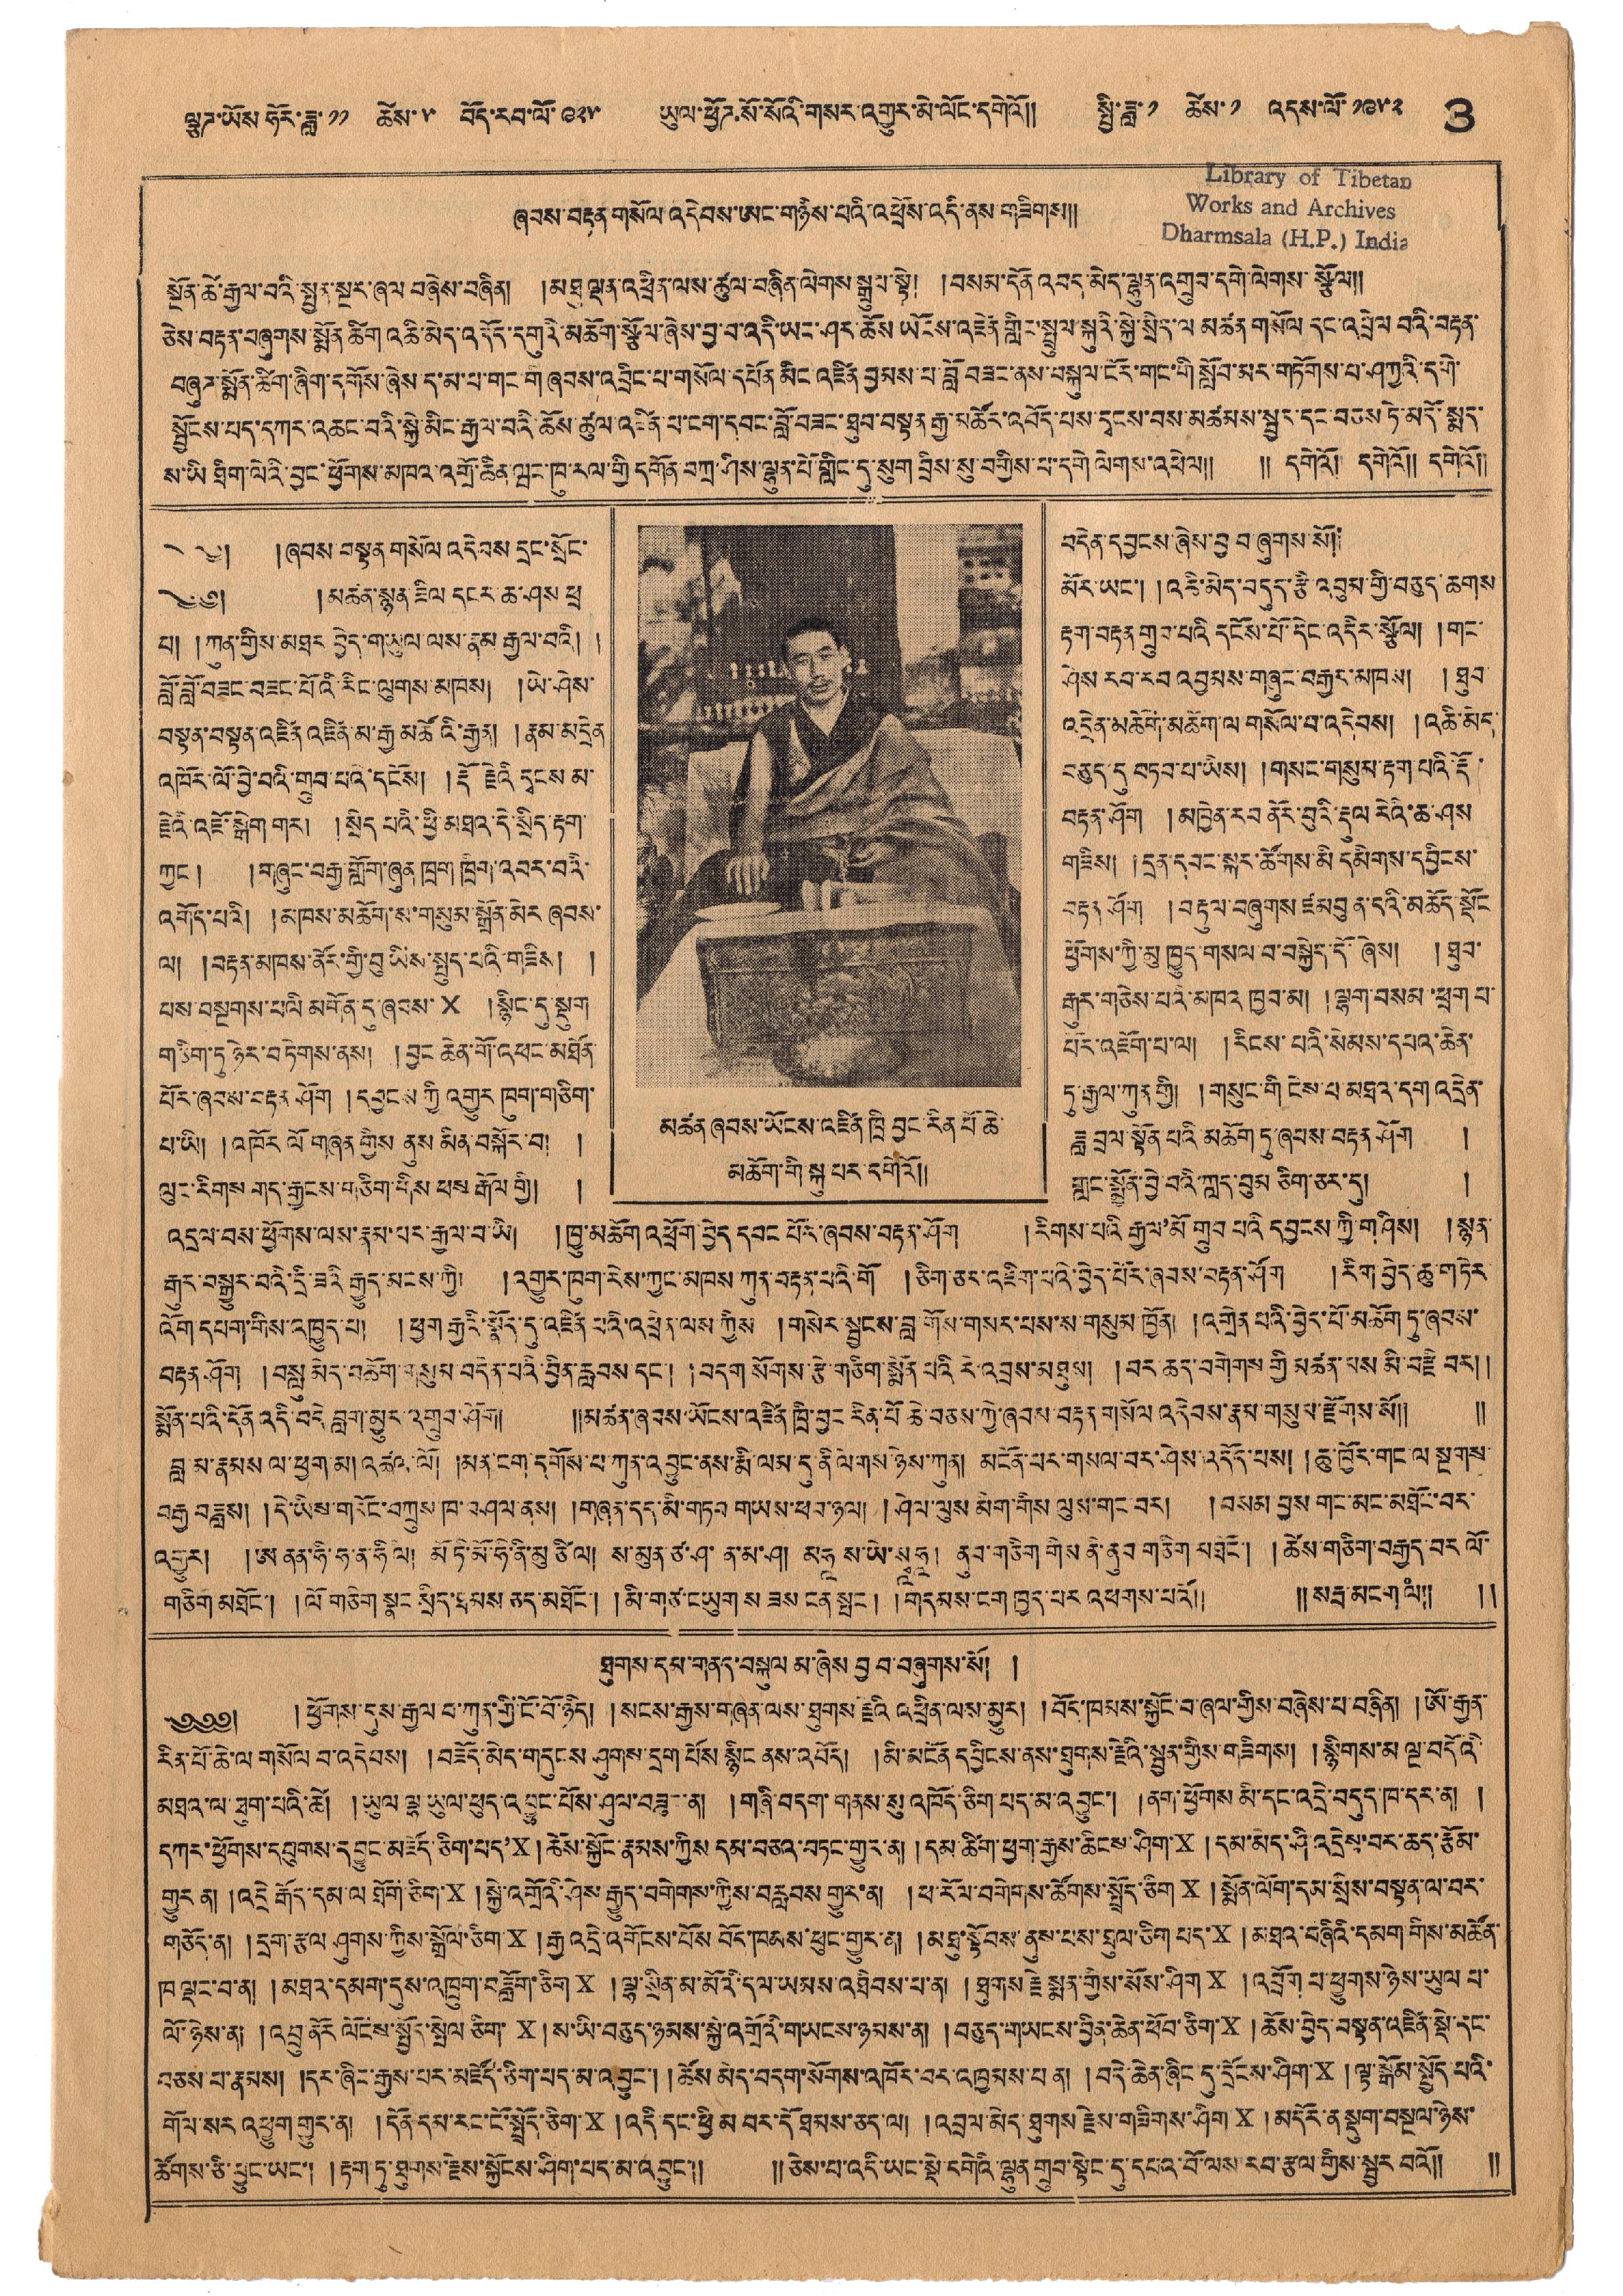ལྕཊ་ཡོས ཧོར་ཟླ་ ༡༡ ཚེས་ ༥ བོད་རབ་པོ་༩༢༥ ཡུལ་ཕྱོཊ་སོ་སོའི་གསར་འགྱུར་མེ་ལོང་དགེའོ།། སྤྱི་ཟླ་ ༡ ཚེས་ ༡ འདས་ལོ་ ༡༩༥༢ 3
ཞབས་བརྟན་གསོལ་འདེབས་ཨང་གཉིས་པའི་འཕྲོས་འདི་ནས་གཟིགས།།
སྔོན་ཚེ་རྒྱལ་བའི་སྤྱན་སྔར་ཞལ་བཞེས་བཞིན། །མཐུ་ལྡན་འཕྲིན་ལས་ཚུལ་བཞིན་ལེགས་སྒྲུབ་སྟེ། །བསམ་དོན་འབད་མེད་ལྷུན་འགྲུབ་དགེ་ལེགས་སྩོལ།།
ཅེས་བརྟན་བཞུགས་སྨོན་ཚིག་འཆི་མེད་འདོད་དགུའི་མཆོག་སྩོལ་ཞེས་བྱ་བ་འདི་ཡང་ཤར་ཆོས་ཡོངས་འཛིན་གླིང་སྤྲུལ་སྐུའི་སྐྱེ་སྲིད་ལ མཚན་གསོལ དང་འབྲེལ བའི་བརྟན་
བཞུཊ་སྨོན་ཚིག་ཞིག་དགོས་ཞེས ད་མ་པ་གང་གི་ཞབས་འབྲིང་པ་གསོལ་དཔོན་མིང་འཛིན་བྱམས་པ་བློ་བཟང་ནས་བསྐུལ་ངོར་གང་གི་སློབ་མར་གཏོགས་པ་ཤཀྱའི་དགེ་
སྦྱོངས་པད་དཀར་འཆང་བའི་སྐྱེ་མིང་རྒྱལ་བའི་ཆོས་ཚུལ་འཛིན་པ་ངག་དབང་བློ་བཟང་ཐུབ་བསྟན་རྒྱ་མཚོར་འབོད་པས་དྭངས་བས་མཚམས་སྦྱར་དང་བཅས་ཏེ་མདོ་སྨད་
ས་ཡི་ཐིག་ལེའི་བྱང་ཕྱོགས་མཁའ་འགྲོ་ཆེན་ཝང་ཁུ་རལ་གྱི་དགོན་བཀྲ་ཤིས་ལྷུན་པོ་གླིང་དུ་སུག བྲིས་སུ་བགྱིས་པ་དགེ་ལེགས་འཕེལ།། །།དགེའོ། དགེའོ།། དགེའོ།།
མཚན ཞབས་ཡོངས་འཛིན་ཁྲི བྱང་རིན་པོ ཆེ་
མཆོག་གི་སྐུ་པར་དགེའོ།།
༄༅། །ཞབས་བསྟན་གསོལ་འདེབས་དྲང་སྲོང་ བདེན་དབྱངས་ཞེས་བྱ བ་ཞུགས་སོ།།
༄༅། །མཚན་སྙན་ཟིལ་དངར་ཆ་ཤས་ཕྲ མོར་ཡང་། །འཆི་མེད་བདུད་རྩི་འབུམ་གྱི་བཅུད་ཆགས་
པ། །ཀུན་གྱིས་མཐར བྱེད་གཡུལ་ལས་རྣམ་རྒྱལ་བའི། ། རྟག་བརྟན་གྲུབ་པའི་དངོས་པོ་དེང་འདིར་སྩོལ། །གང་
བློ་བློ་བཟང་བཟང་པོའི་རིང་ལུགས་མཁས། །ཡེ་ཤེས་ ཤེས་རབ་རབ་འབྱམས་གཞུང་བརྒྱར་མཁས། །ཐུབ་
བསྟན་བསྟན་འཛིན་འཛིན་མ་རྒྱ་མཚོའི་རྒྱན། །རྣམ་མདྲེན འདྲེན་མཆོག་མཆོག་ལ་གསོལ་བ་འདེབས། །འཆི་མེད་
འཁོར་ལོ་བྱེ་བའི་གྲུབ་པའི་དངོས། །རྡོ རྗེའི་དྭངས་མ་ བཅུད་དུ་བཏབ་པ་ཡིས། །གསང་གསུམ་རྟག་པའི་རྡོ་
རྗེའི་འཇོ་སྒེག་གར། །སྲིད་པའི་ཕྱི་མཐར་དེ་སྲིད་རྟག་ བརྟག་ཤོག །མཁྱེན་རབ་ནོར་བུའི་རྡུལ་རེའི་ཆ་ཤས་
ཀྱང་། །གཞུང་བརྒྱ་གློག་ཞུན་ཁྲག་ཁྲག་འབར་བའི་ གཟིས། །དྲན་དབང་སྒར་ཚོགས་མི དམིགས་དབྱིངས་
འགོད་པའི། །མཁས་མཆོག་ས་གསུམ་སྒྲོན་མེར ཞབས་ བརྟན་ཤོག །བརྟུལ་བཞུགས་ཛམབུན་དའི་མཆོད་སྡོང
ལ། བརྟན་མཁས་ནོར་གྱི་བུ་ཡིས་སྤྱོད་པའི་གཟིས། ། ཕྱོགས་ཀྱི་མུ་ཁྱུད་གསལ་བ་བསྐྱེད་དོ་ཞེས། །ཐུབ་
པས་བསྔགས་པའི མགོན་དུ་ཞབས་x །སྙིང་དུ་སྡུག རྒུར་གཅེས་པའི་མཁའ ཁྱབ་མ། །ལྷག་བསམ་ཕྲག པ་
གཅིག་ཏུ་ཉེར་བཏེགས་ནས། །བྱང་ཆེན་གོ་འཕྲང་མཐོན་ པར་འཇོག་པ་ལ། །རིངས་པའི་སེམས་དཔའ་ཆེན་
པོར་ཞབས་བརྟན་ཤོག །དབྱངས་ཀྱི་འགྱུར ཁུག་གཅིག་ ཏུ་རྒྱལ་ཀུན་གྱི། །གསུང་གི ངེས་པ་མཐའ་དག འདྲེན
པ་ཡི། །འཁོར་ལོ གཞན་གྱིས ནུས་མིན་བསྐོར་བ། ། ཟླ་བྲལ་སྟོན་པའི་མཆོག་ཏུ་ཞབས་བརྟན་ཤོག །
ལུང་རིགས གད་རྒྱངས་གཅིག་གིས་ཕས་རྒོལ་གྱི། ། གླང་སྨྱོན་བྱེ་བའི་ཀླད་བུམ ཅིག་ཅར་དུ། །
འདྲལ་བས་ཕྱོགས་ལས་རྣམ་པར་རྒྱལ་བ་ཡི། །ཁྱུ་མཆོག འཕྲོག་བྱེད དབང་པོར་ཞབས་བརྟན་ཤོག །རིགས་པའི རྒྱལ་མོ གྲུབ་པའི་དབྱངས་ཀྱི་གཤིས། །སྙན་
རྒུར་བསྒྱུར་བའི་དྲི་ཟའི་རྒྱུད་མངས་ཀྱི། །འགྱུར་ཁུག་རེས་ཀྱང་མཁས་ཀུན་བརྟན་པའི་གོ །ཅིག་ཅར་འཇིག་པའི་བྱེད་པོར་ཞབས་བརྟན་ཤོག །རིག་བྱེད་ཆུ་གཏེར་
འོག་དཔག་གིས་འཁྱུད་པ། །ཕྱག་རྒྱའི་སྣོད་དུ་འཛིན་པའི་འཕྲིན ལས་ཀྱིས །གསེར་སྦྱངས་བླ གོས་གསར་པས་ས་གསུམ་ཁྱོན། །འགྲེན་པའི་བྱེད་པོ་མཆོག་ཏུ་ཞབས་
བརྟན་ཤོག །བསླུ་མེད་མཆོག་གསུམ་བདེན་པའི་བྱིན་རླབས་དང་། །བདག་སོགས་རྩེ་གཅིག་སྨོན་པའི་རེ་འབྲས་མཐུས། །བར་ཆད་བགེགས་གྱི་མཚན་པས་མི་བརྗི་བར།།
སྨོན་པའི་དོན་འདི་བདེ་བླག་མྱུར་འགྲུབ་ཤོག། །།མཚན་ཞབས་ཡོངས་འཛིན་ཁྲི་བྱང་རིན་པོ་ཆེ་བཅས་ཀྱི་ཞབས་བརྟན གསོལ འདེབས་རྣམ་གསུམ་རྫོགས་ས།། །།
བླ་མ་རྣམས ལ་ཕྱག་མ། འཚལ་ལོ། །མན་ངག་དགོས་པ་ཀུན་འབྱུང་ནས་རྨི་ལམ་དུ་ནི་ལེགས་ཉེས་ཀུན། །མངོན་པར་གསལ་བར་ཤེས་འདོད་པས། །ཆུ་ཁྱོར་གང་ལ་སྔགས་
བརྒྱ་བཟླས། །དེ་ཡིས་གརོང་འཀྲུས་ཁ་བཤལ་ནས། །གཞན་དད་མི་གཏབ་གཡས་ཕབ་ཉལ། །ཤེལ་ལུས་མིག་གིས་ལུས་གང་བར། །བསམ་བྱས གང་མང་མཐོང་བར་
འགྱུར། །ཨ་ནན་ཧི་ཧ་ན་ཧི་ལ། མོ་ཡི་མོ་ཧི་ནི་མུ་ཙི་ལ། ས་མུན་ཙ་ན་ན་མ་ཤ། མཧཱ ས་ཡེ་སྭཱཧཱ། ནུབ་གཅིག གིས་ནི་ནུས་གཅིག་མཐོང་། །ཚེས་གཅིག་བརྒྱད་བར་ལོ་
གཅིག་མཐོང་། །ལོ་གཅིག སྣང་སྲིད་ཐམས་ཅད་མཐོང་། །མི་གཙ་ང་ཡུག་ས ཟས ངནསྤང། །གདམས་ངག་ཁྱད་པར་འཕགས་པའོ།། །།སརྦ་མངགལཾ།། །།
ཐུགས་དམ་གནད་བསྐུལ་མ་ཞེས བྱ བ་བཞུགས་སོ། །
༄༅༅། །ཕྱོགས་དུས་རྒྱལ་བ་ཀུན་གྱི་ངོ་བོ་ཉིད། །སངས་རྒྱས་གཞན་ལས་ཐུགས་རྗེའི འཕྲིན་ལས་མྱུར། །བོད་ཁམས་སྐྱོང་བ་ཞལ་གྱིས་བཞེས་པ་བཞིན། །ཨོ་རྒྱན་
རིན་པོ་ཆེ་ལ་གསོལ་བ་འདེབས། བཟོད་མེད་གདུངས ཤུགས་དྲག་པོས སྙིང་ནས་འབོད། །མི་མངོན་དབྱིངས་ནས་ཐུགས་རྗེས་སྦྱན་གྱིས་གཟིགས། །སྙིགས་མ་སྔ་བོདའི་
མཐའ་ལ་ཐུག་པའི་ཚེ། །ཡུལ་ལྷ་ཡུལ་ཕུད་འབྱུང་པོས་ཤུལ་བཟུང་ན། །གཞི་བདག་གནས་སུ་འཁོད་ཅིག་པད་མ་འབྱུང་། །ནག་ཕྱོགས་མི་དང་འདྲེ་བདུད་ཁ་དར་ན། །
དཀར་ཕྱོགས་དབུགས་དབྱུང་མཛོད་ཅིག་པད'x།ཆོས་སྐྱོང་རྣམས་ཀྱིས་དམ་བཅའ་བཏང་གྱུར་ན། །དམ་ཚིག་ཕྱག་རྒྱས་ཆིངས་ཤིག་x།དམ་མེད་ཤི་འདྲེས་བར་ཆད་རྩོམ་
གྱུར་ན། །འདྲེ་རྒོད་དམ་ལ་ཐོག་ཅིག་x།སྐྱེ་འགྲོའི་ཤེས་རྒྱུད་བགེགས་ཀྱིས་བརླབས་གྱུར་ན། །ཕ་རོལ་བགེགས་ཚོགས་སྤྲོད་ཅིགx།སྨོན་ལོག་དམ་སྲེས་བསྟན་ལ་བར་
གཅོད་ན། །དྲག་རྩལ ཤུགས་ཀྱི་སྒྲོལ་ཅིག་x།རྒྱ་འདྲེ་འགོངས་པོས་བོད་ཁམས་ཕུང་གྱུར་ན། །མཐུ་སྟོབས་ནུས་པས་ཐུལ་ཅིག་པད་x།མཐའ་བཞིའི་དམག་གིས་མཚོན་
ཁ་ལྡང་བ་ན། །མཐའ་དམག་དུས་འཁྲུག་བཟློག་ཅིགx །ལྷ་སྲིན་མ་མོའི་དལ་ཡམས་འཐིབས་པ་ན། །ཐུགས་རྗེ་སྨན་གྱིས་སོས་ཤིག་x།འབྲོག་ཕ་ཕྱུགས་ཉེས་ཡུལ་པ་
ལོ་ཉེས་ན། །འབྲུ་ནོར་ལོངས་སྤྱོད་སྤེལ་ཅིག་x།ས་ཡི་བཅུད་ཉམས་སྐྱེ་འགྲོའི་གཡངས་ཉབས་ན། །བཅུད་གཡངས་བྱིན་ཆེན་ཕོབ་ཅིག་x།ཆོས་བྱེད་བསྟན་འཛིན་སྡེ་དང་
བཅས་པ་རྣམས། །དར་ཞིང་རྒྱས་པར་མཛོད་ཅིག་པད་མ་འབྱུང་། །ཆོས་མེད་བདག་སོགས་འཁོར་བར་འཁྱབས་པ་ན། །བདེ་ཆེན་ཞིང་དུ་དྲོངས་ཤིག་x།ལྟ་སྒོམ་སྤྱོད་པའི་
གོལ་སར འཕྱུག་གྱུར་ན། །དོན་དམ་རང་ངོ་སྤྲོད་ཅིག་x།འདི་དང་ཕྱི་མ་བར་དོ་ཐམས་ཅད་ལ། །འབྲས་མེད་ཐུགས་རྗེས་གཟིགས་ཤིགx།མདོར་ན་སྡུག་བསྔལ་ཉེས་
ཚོགས་ཅི་བྱུང་ཡང་། །རྟག་ཏུ་ཐུགས་རྗེས་སྐྱོངས་ཤིག་པད་མ་འབྱུང་།། །།ཅེས་པ་འདི་ཡང་སྡེ་དགེའི་ལྷུན་གྲུབ་སྟེང་དུ་དཔའ་བོ་ལས་རབ་རྩལ་གྱིས་སྦྱར་བའོ།། །།
